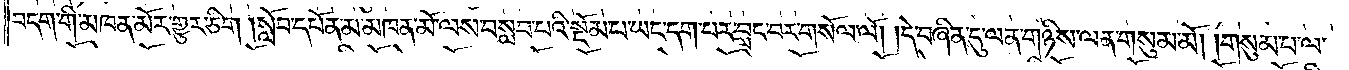བདག་གི་མཁན་མོར་གྱུར་ཅིག །སློབ་དཔོན་མ་མཁན་མོ་ལས་བསླབ་པའི་སྡོམ་པ་ཡང་དག་པར་བླང་བར་གསོལ་ལོ། །དེ་བཞིན་དུ་ལན་གཉིས་ལན་གསུམ་མོ། །གསུམ་པ་ལ་
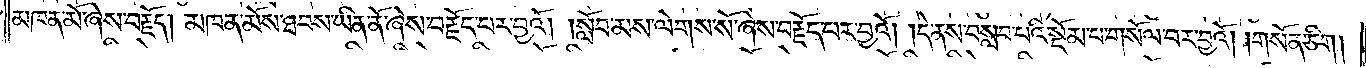མཁན་མོ་ཞེས་བརྗོད། མཁན་མོས་ཐབས་ཡིན་ནོ་ཞེས་བརྗོད་པར་བྱའོ། །སློབ་མས་ལེགས་སོ་ཞེས་བརྗོད་པར་བྱའོ། །དེ་ནས་བསླབ་པའི་སྡོམ་པ་གསོལ་བར་བྱའོ། །གསོན་ཅིག །
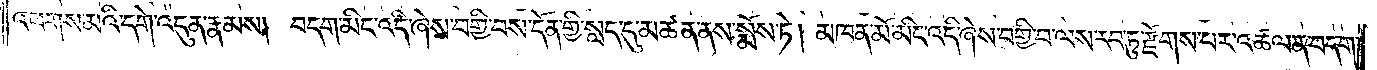འཕགས་མའི་དགེ་འདུན་རྣམས། བདག་མིང་འདི་ཞེས་བགྱི་བས་དོན་གྱི་སླད་དུ་མཚན་ནས་སྨྲོས་ཏེ། མཁན་མོ་མིང་འདི་ཞེས་བགྱི་བ་ལས་རབ་ཏུ་རྫོགས་པར་འཚལ་ན་བདག་
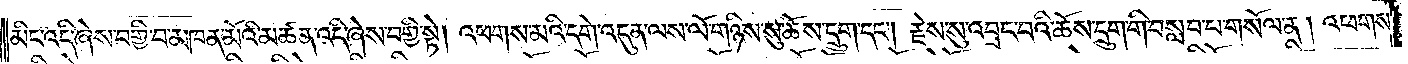མིང་འདི་ཞེས་བགྱི་བ་མཁན་མོའི་མཚན་འདི་ཞེས་བགྱི་སྟེ། འཕགས་མའི་དགེ་འདུན་ལས་ལོ་གཉིས་སུ་ཆོས་དྲུག་དང༌། རྗེས་སུ་འབྲང་བའི་ཆོས་དྲུག་གི་བསླབ་པ་གསོལ་ན། འཕགས་
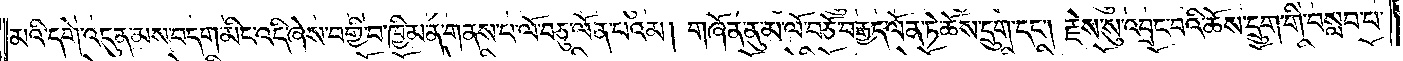མའི་དགེ་འདུན་མས་བདག་མིང་འདི་ཞེས་བགྱི་བ་ཁྱིམ་ན་གནས་པ་ལོ་བཅུ་ལོན་པའམ། གཞོན་ནུ་མ་ལོ་བཅོ་བརྒྱད་ལོན་ཏེ་ཆོས་དྲུག་དང༌། རྗེས་སུ་འབྲང་བའི་ཆོས་དྲུག་གི་བསླབ་པ་
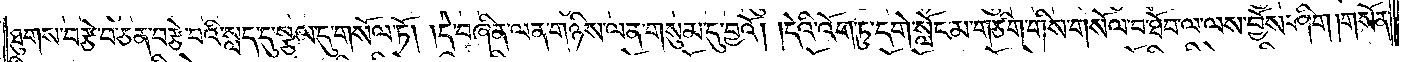ཐུགས་བརྩེ་བ་ཅན་བརྩེ་བའི་སླད་དུ་སྩལ་དུ་གསོལ་ཏོ། །དེ་བཞིན་ལན་གཉིས་ལན་གསུམ་དུ་བྱའོ། །དེའི་འོག་ཏུ་དགེ་སློང་མ་གཅིག་གིས་གསོལ་བ་ཐོབ་ལ་ལས་བྱོས་ཤིག །གསོན་
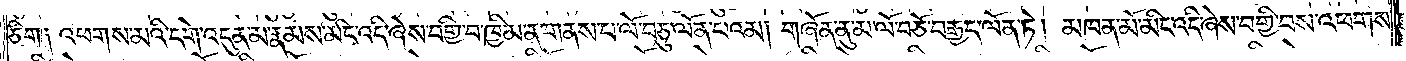ཅིག༑ འཕགས་མའི་དགེ་འདུན་མ་རྣམས་མིང་འདི་ཞེས་བགྱི་བ་ཁྱིམ་ན་གནས་པ་ལོ་བཅུ་ལོན་པའམ། གཞོན་ནུ་མ་ལོ་བཅོ་བརྒྱད་ལོན་ཏེ། མཁན་མོ་མིང་འདི་ཞེས་བགྱི་བས་འཕགས་
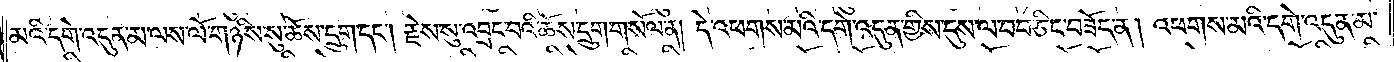མའི་དགེ་འདུན་མ་ལས་ལོ་གཉིས་སུ་ཆོས་དྲུག་དང༌། རྗེས་སུ་འབྲང་བའི་ཆོས་དྲུག་གསོལ་ན། དེ་འཕགས་མའི་དགེ་འདུན་གྱིས་དུས་ལ་བབ་ཅིང་བཟོད་ན། འཕགས་མའི་དགེ་འདུན་མ་
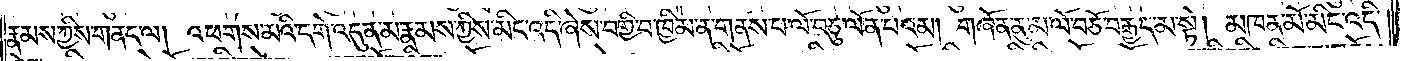རྣམས་ཀྱིས་གནང་ལ། འཕགས་མའི་དགེ་འདུན་མ་རྣམས་ཀྱིས་མིང་འདི་ཞེས་བགྱི་བ་ཁྱིམ་ན་གནས་པ་ལོ་བཅུ་ལོན་པའམ། གཞོན་ནུ་མ་ལོ་བཅོ་བརྒྱད་མ་སྟེ། མཁན་མོ་མིང་འདི་
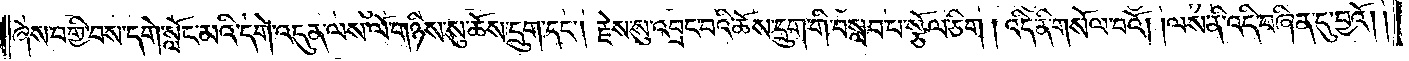ཞེས་བགྱི་བས་དགེ་སློང་མའི་དགེ་འདུན་ལས་ལོ་གཉིས་སུ་ཆོས་དྲུག་དང༌། རྗེས་སུ་འབྲང་བའི་ཆོས་དྲུག་གི་བསླབ་པ་སྩོལ་ཅིག །འདི་ནི་གསོལ་བའོ། །ལས་ནི་འདི་བཞིན་དུ་བྱའོ། །
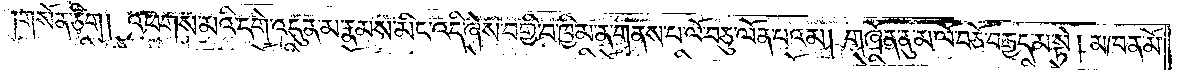གསོན་ཅིག། འཕགས་མའི་དགེ་འདུན་མ་རྣམས་མིང་འདི་ཞེས་བགྱི་བ་ཁྱིམ་ན་གནས་པ་ལོ་བཅུ་ལོན་པའམ། གཞོན་ནུ་མ་ལོ་བཅོ་བརྒྱད་མ་སྟེ། མཁན་མོ་
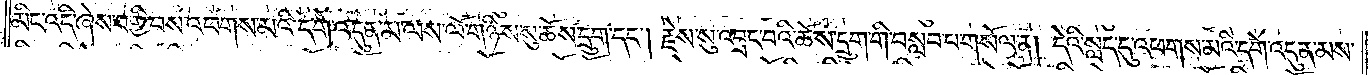མིང་འདི་ཞེས་བགྱི་བས་འཕགས་མའི་དགེ་འདུན་མ་ལས་ལོ་གཉིས་སུ་ཆོས་དྲུག་དང༌། རྗེས་སུ་འབྲང་བའི་ཆོས་དྲུག་གི་བསླབ་པ་གསོལ་ན། དེའི་སླད་དུ་འཕགས་མའི་དགེ་འདུན་མས་
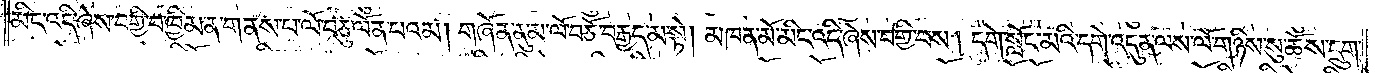མིང་འདི་ཞེས་བགྱི་བ་ཁྱིམ་ན་གནས་པ་ལོ་བཅུ་ལོན་པའམ། གཞོན་ནུ་མ་ལོ་བཅོ་བརྒྱད་མ་སྟེ། མཁན་མོ་མིང་འདི་ཞེས་བགྱི་བས། དགེ་སློང་མའི་དགེ་འདུན་ལས་ལོ་གཉིས་སུ་ཆོས་དྲུག་
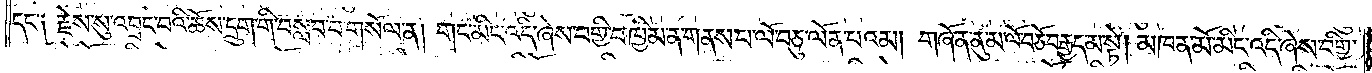དང་༑ རྗེས་སུ་འབྲང་བའི་ཆོས་དྲུག་གི་བསླབ་པ་གསོལ་ན། གང་མིང་འདི་ཞེས་བགྱི་བ་ཁྱིམ་ན་གནས་པ་ལོ་བཅུ་ལོན་པའམ། གཞོན་ནུ་མ་ལོ་བཅོ་བརྒྱད་མ་སྟེ། མཁན་མོ་མིང་འདི་ཞེས་བགྱི་
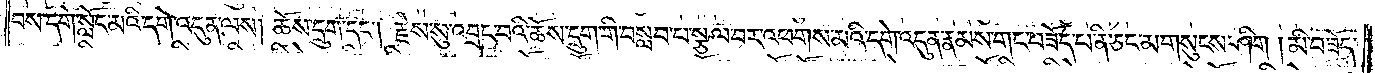བས་དགེ་སློང་མའི་དགེ་འདུན་ལས། ཆོས་དྲུག་དང༌། རྗེས་སུ་འབྲང་བའི་ཆོས་དྲུག་གི་བསླབ་པ་སྩལ་བར་འཕགས་མའི་དགེ་འདུན་རྣམས་གང་བཟོད་པ་ནི་ཅང་མ་གསུངས་ཤིག །མི་བཟོད་
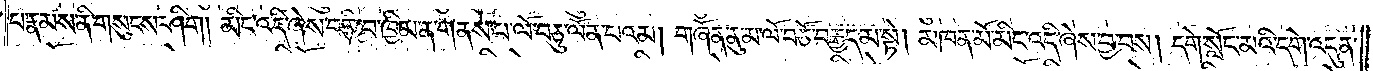པ་རྣམས་ནི་གསུངས་ཤིག །མིང་འདི་ཞེས་བགྱི་བ་ཁྱིམ་ན་གནས་པ་ལོ་བཅུ་ལོན་པའམ། གཞོན་ནུ་མ་ལོ་བཅོ་བརྒྱད་མ་སྟེ། མཁན་མོ་མིང་འདི་ཞེས་བྱ་བས། དགེ་སློང་མའི་དགེ་འདུན་
